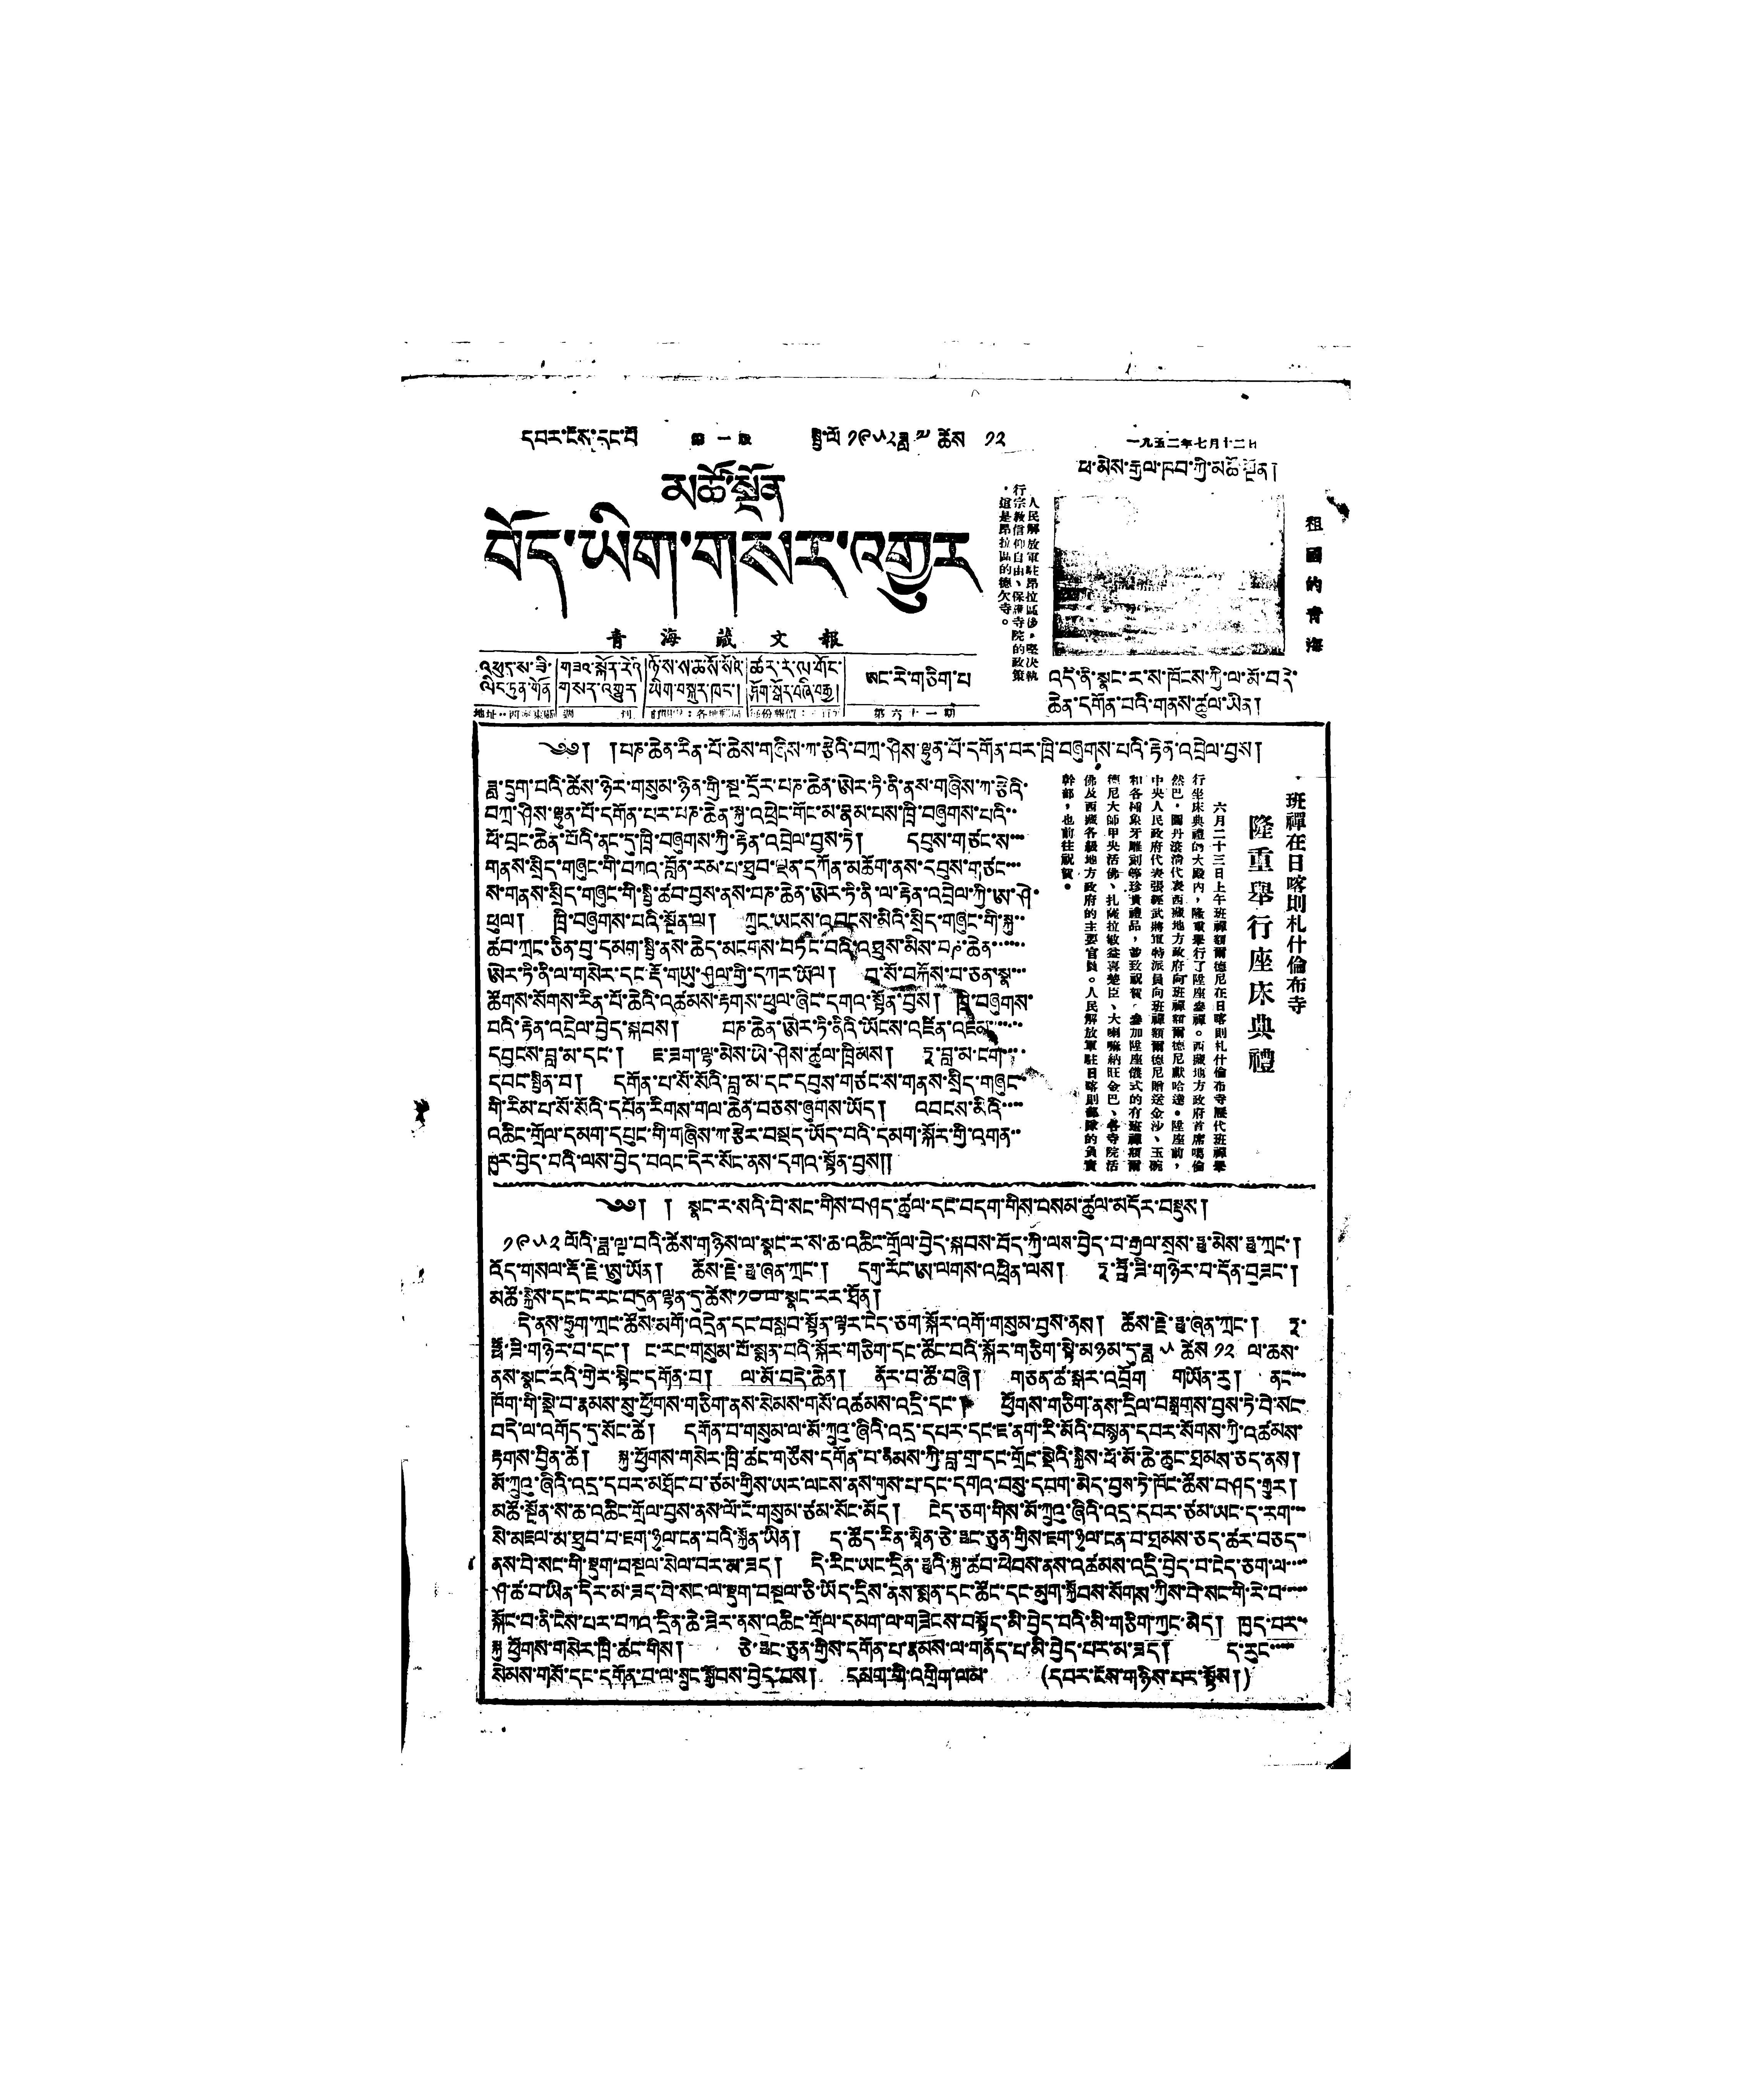དཔར་ངོས་དང་པོ 第一版 སྤྱི་ལོ་ ༡༩༥༢ཟླ་༧ ཚེས ༡༢ 一九五二年七月十二日
མཚོ་སྔོན
བོད་ཡིག་གསར་འགྱུར
靑 海 藏 文 報
祖 國 的 靑 海
人民解放軍駐昂拉區後，堅決執
行宗敎信仰自由、保護寺院的政策
，這是昂拉區的德欠寺。
ཕ་མེས་རྒྱལ་ཁབ་ཀྱི་མཚོ་སྔོན།
འདི་ནི་སྣང་ར་ས་ཁོངས་ཀྱི་ལ་མོ་བདེ་
ཆེན་དགོན་པའི་གནས་ཚུལ་ཡིན།
༄༅། །པཎ་ཆེན་རིན་པོ་ཆེས་གཞིས་ཀ་རྩེའི་བཀྲ་ཤིས་ལྷུན་པོ་དགོན་པར་ཁྲི་བཞུགས་པའི་རྟེན་འབྲེལ་བྱས།
ཟླ་དྲུག་པའི་ཚེས་ཉེར་གསུམ་ཉིན་གྱི་སྔ་དྲོར་པཎ་ཆེན་ཨེར་ཏི་ནི་ནས་གཞིས་ཀ་རྩེའི་
བཀྲ་ཤིས་ལྷུན་པོ་དགོན་པར་པཎ་ཆེན་སྐུ་འཕྲེང་གོང་མ་རྣམ་པས་ཁྲི་བཞུགས་པའི་་
ཕོ་བྲང་ཆེན་པོའི་ནང་དུ་ཁྲི་བཞུགས་ཀྱི་རྟེན་འབྲེལ་བྱས་ཏེ། དབུས་གཙང་ས་་་
གནས་སྲིད་གཞུང་གི་བཀའ་བློན་རམ་པ་ཐུབ་ལྡན་དཀོན་མཆོག་ནས་དབུས་གཙང་་་
ས་གནས་སྲིད་གཞུང་གི་སྤྱི་ཚབ་བྱས་ནས་པཎ་ཆེན་ཨེར་ཏི་ནི་ལ་རྟེན་འབྲེལ་ཀྱི་ཨ་ཤེ་
ཕུལ། ཁྲི་བཞུགས་པའི་སྔོན་ལ། ཀྲུང་ཡངས་འབངས་མིའི་སྲིད་གཞུང་གི་སྐུ་་
ཚབ་ཀྲང་ཅིན་བུ་དམག་སྤྱི་ནས་ཆེད་མངགས་བཏང་བའི་འཐུས་མིས་བཎ་ཆེན་་་་་་
ཨེར་ཏི་ནི་ལ་གསེར་དང་རྡོ་གཡུ་ཤུལ་གྱི་དཀར་ཡོལ། བ་སོ་བརྐོས་པ་ཅན་སྣ་་་
ཚོགས་སོགས་རིན་པོ་ཆེའི་འཚམས་རྟགས་ཕུལ་ཞིང་དགའ་སྟོན་བྱས། ཁྲི་བཞུགས་
པའི་རྟེན་འདྲེལ་བྱེད་སྐབས། པཎ་ཆེན་ཨེར་ཏི་ནིའི་ཡོངས་འཛིན་འཇམ་་་་་་
དབྱངས་བླ་མ་དང་། ཇ་ཟག་ལྷ་མེས་ཡེ་ཤེས་ཚུལ་ཁྲིམས། ཏཱ་བླ་མ་ངག་་་་
དབང་སྦྱིན་བ། དགོན་པ་སོ་སོའི་བླ་མ་དང་དབུས་གཙང་ས་གནས་སྲིད་གཞུང་་
གི་རིམ་པ་སོ་སོའི་དཔོན་རིགས་གལ་ཆེན་བཅས་ཞུགས་ཡོད། འབངས་མིའི་་་་
འཆིང་གྲོལ་དམག་དཔུང་གི་གཞིས་ཀ་རྩེར་བསྡད་ཡོད་པའི་དམག་སྐོར་གྱི་འགན་་
ཁུར་བྱེད་པའི་ལས་བྱེད་པའང་དེར་སོང་ནས་དགའ་སྟོན་བྱས༎
班禪在日喀則札什倫布寺
隆重舉行座床典禮
六月二十三日上午班禪額爾德尼在日喀則札什倫布寺歷代班禪舉
行坐床典禮的大殿內，隆重舉行了陞座參禪。西藏地方政府首席噶倫
然巴，圖丹滾清代表西藏地方政府向班禪額爾德尼獻哈達。陞座前，
中央人民政府代表張經武將軍特派員向班禪額爾德尼贈送金沙、玉碗
和各種象牙雕刻等珍貴禮品，並致祝賀。參加陞座儀式的有班禪額爾
德尼大師甲央活佛、扎薩拉敏益喜楚臣、大喇嘛納旺金巴、各寺院活
佛及西藏各級地方政府的主要官員。人民解放軍貯日喀則部隊的負責
幹部，也前往祝賀。
༄༅། ། སྣང་ར་སའི་བེ་སང་གིས་བཤད་ཚུལ་དང་བདག་གིས་བསམ་ཚུལ་མདོར་བསྡུས།
༡༩༥༢ ལོའི་ཟླ་ལྔ་བའི་ཚེས་གཉིས་ལ་སྣང་ར་ས་ཆ་འཆིང་གྲོལ་བྱེད་སྐབས་བོད་ཀྱི་ལས་བྱེད་པ་རྒྱལ་སྲས་ཧྥུ་མེས་ཧྥུ་ཀྲང་།
འོད་གསལ་རྡོ་རྗེ་ཨུ་ཡོན། ཆོས་རྗེ་ཧྥུ་ཞན་ཀྲང་། དགུ་རོང་ཨ་ལགས་འཕྲིན་ལས། ཏཱ་ཧྥོ་ཟི་གཉེར་བ་དོན་བཟང་།
མཚོ་སྐྱེས་དང་ང་རང་བདུན་ལྷན་དུ་ཚེས་༡༠་ལ་སྣང་རར་ཐོན།
དེ་ནས་ཧྲུག་ཀྲང་ཚོས་མགོ་འདྲེན་དང་བསླབ་སྟོན་ལྟར་ངེད་ཅག་སྐོར་འགོ་གསུམ་བྱས་ནས། ཆོས་རྗེ་ཧྥུ་ཞན་ཀྲང་། ཏཱ་
ཧྥོ་ཟི་གཉེར་བ་དང་། ང་རང་གསུམ་པོ་སྨན་པའི་སྐོར་གཅིག་དང་ཚོང་བའི་སྐོར་གཅིག་སྟེ་མཉམ་དུ་ཟླ ༥ ཚེས ༡༢ ལ་ཆས་
ནས་སྣང་རའི་གྱེར་སྟེང་དགོན་པ། ལ་མོ་བདེ་ཆེན། ནོར་བ་ཚོ་བཞི། གཅན་ཚ་སྒར་འབྲོག གཡོན་རུ། ནང་་་
ཁོག་གི་སྡེ་བ་རྣམས་སུ་ཕྱོགས་གཅིག་ནས་སེམས་གསོ་འཚམས་འདྲི་དང། ཕྱོགས་གཅིག་ནས་དྲིལ་བསྒྲགས་བྱས་ཏེ་བེ་སང་
བདེ་ལ་འགོད་དུ་སོང་ཚེ། དགོན་པ་གསུམ་ལ་མོ་ཀྲུའུ་ཞིའི་འདྲ་དཔར་དང་ཇ་ནག་རི་མོའི་བསྙན་དབར་སོགས་ཀྱི་འཚམས་
རྟགས་བྱིན་ཚེ། སྐུ་ཕྱོགས་གསེར་ཁྲི་ཚང་གཙོས་དགོན་པ་རྣམས་ཀྱི་བླ་གྲ་དང་གྲོང་སྡེའི་སྐྱེས་ཕོ་མོ་ཆེ་ཆུང་ཐམས་ཅད་ནས།
མོ་ཀྲུའུ་ཞིའི་འདྲ་དཔར་མཐོང་པ་ཙམ་གྱིས་ཡར་ལངས་ནས་གུས་པ་དང་དགའ་བསུ་དབག་མེད་བྱས་ཏེ་ཁོང་ཚོས་བཤད་རྒྱུར།
མཚོ་སྔོན་ས་ཆ་འཆིང་གྲོལ་བྱས་ནས་ལོ་ངོ་གསུམ་ཙམ་སོང་མོད། ངེད་ཅག་གིས་མོ་ཀྲུའུ་ཞིའི་འདྲ་དཔར་ཙམ་ཡང་ད་རག་་་
སེ་མཇལ་མ་ཐུབ་པ་ཇག་ཉུལ་ངན་པའི་སྐྱོན་ཡིན། ད་ཚོད་རིན་མཱིན་ཅེ་ཧྥང་ཅུན་གྱིས་ཇག་ཉུལ་ངན་པ་ཐམས་ཅད་ཚར་བཅད་་
ནས་བེ་སང་གི་སྡུག་བསྔལ་སེལ་བར་མ་ཟད། དེ་རིང་ཡང་དྲིན་ཧྥུའི་སྐུ་ཚབ་ཕེབས་ནས་འཚམས་འདྲི་བྱེད་པ་ངེད་ཅག་ལ་་་་
ཤ་ཚ་བ་ཡིན་དེར་མ་ཟད་པེ་སང་ལ་སྡུག་བསྔལ་ཅི་ཡོད་དྲིས་ནས་སྨན་དང་ཚོང་དང་མུག་སྐྱོབས་སོགས་ཀྱིས་བེ་སང་གི་རེ་བ་་་་་
སྐོང་བ་ནི་ངེས་པར་བཀའ་དྲིན་ཆེ་ཟེར་ནས་འཆིང་གྲོལ་དམག་ལ་གཟེངས་བསྟོད་མི་བྱེད་པའི་མི་གཅིག་ཀྱང་མེད། ཁྱད་པར་་
སྐུ ཕྱོགས་གསེར་ཁྲི་ཚང་གིས། ཅེ་ཧྥང་ཅུན་གྱིས་དགོན་པ་རྣམས་ལ་གནོད་པ་མི་བྱེད་པར་མ་ཟད། ད་རུང་་་་་
སེམས་གསོ་དང་དགོན་པ་ལ་སྲུང་སྐྱབས་བྱེད་པས། དམག་གི་འགྲིག་ལམ་ (དཔར་ངོས་གཉིས་པར་སྟོས།)
